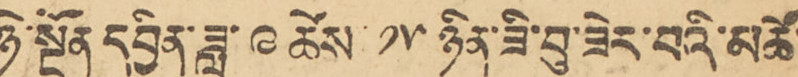ཉེ་སྔོན དབྱིན་ཟླ་ ༩ ཚེས་ ༡༥ ཉིན་ཟི་བུ་ཟེར་བའི་མཚོ་
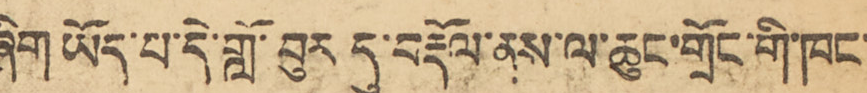ཞིག ཡོད་པ་དེ་གློ་བུར དུ་བརྡོལ་ནས་ལ་ཆུང་གྲོང་གི་ཁང་
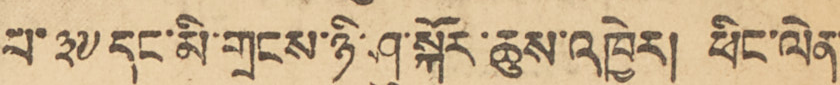པ་ ༣༧ དང་མི་གྲངས་ཉི་ཤུ་སྐོར་ཆུས་འཁྱེར། ཕིང་ལེན་
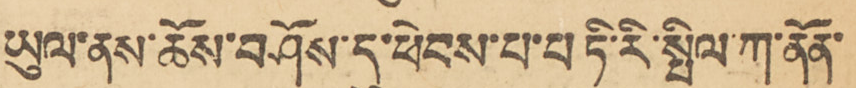ཡུལ་ནས་ཆོས་བཤོལ་དུ་ཕེབས་པ་པ ཏི་རི་སྤིལ་ཀ་ནོན་
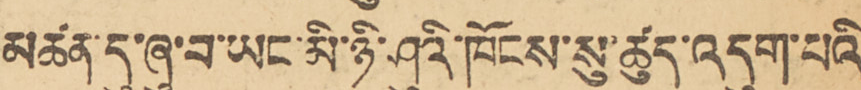མཚན་དུ་ཞུ་བ་ཡང་མི་ཉི་ཤུའི་ཁོངས་སུ་ཚུད་འདུག་པའི
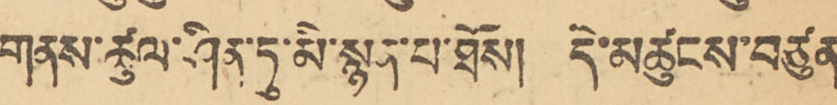གནས་ཚུལ་ཤིན་ཏུ་མི་སྙན་པ་ཐོས། དེ་མཚུངས་བཙུན་
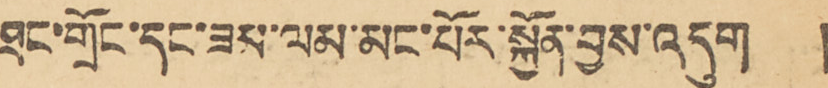ཐང་གྲོང་དང་ཟམ་ལམ་མང་པོར་སྐྱོན་བྱས་འདུག །
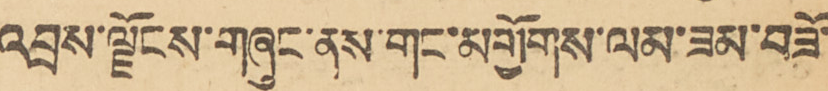འབྲས་ལྗོངས་གཞུང་ནས་གང་མགྱོགས་ལམ་ཟམ་བཟོ་
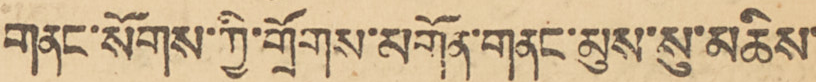གནང་སོགས་ཀྱི་གྲོགས་མགོན་གནང་མུས་སུ་མཆིས་
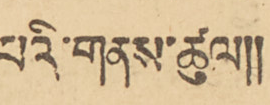པའི་གནས་ཚུལ།།
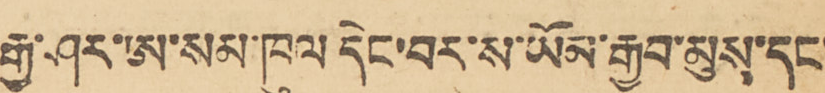རྒྱ་ཤར་ཨ་སམ་ཁུལ་དེང་བར་ས་ཡོམ་རྒྱབ་མུས་དང་
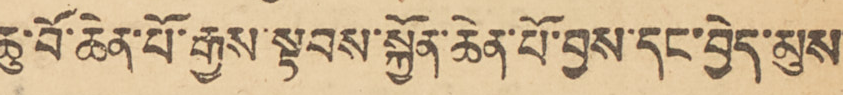ཆུ་བོ་ཆེན་པོ་རྒྱས་སྟབས་སྐྱོན་ཆེན་པོ་བྱས་དང་བྱེད་མུས
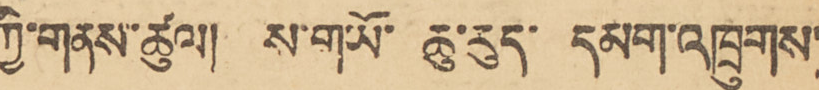ཀྱི་གནས་ཚུལ། ས་གཡོ་ ཆུ་རུད་ དམག་འཁྲུགས་
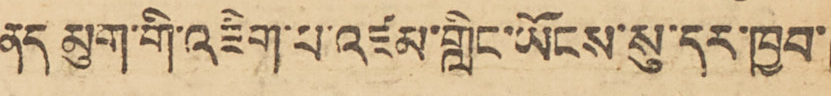ནད མུག་གི་འཇིག་པ་འཛམ་གླིང་ཡོངས་སུ་དར་ཁྱབ་
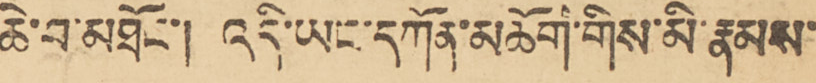ཆེ་བ་མཐོང་། འདི་ཡང་དཀོན་མཆོག་གིས་མི་རྣམས་
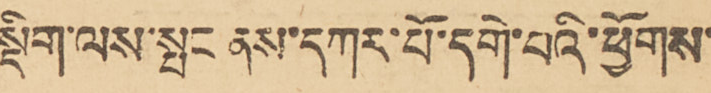སྡིག་ལས་སྤང ནས་དཀར་པོ་དགེ་བའི་ཕྱོགས་
